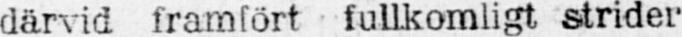därvid framfört fullkomligt strider
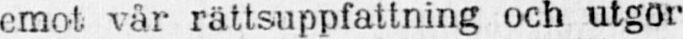emot vår rättsuppfattning och utgör
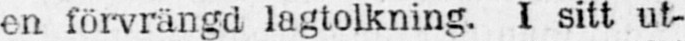en förvrängd lagtolkning. I sitt ut-
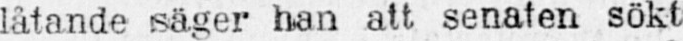låtande säger han att senaten sökt
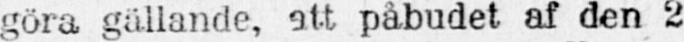göra gällande, att påbudet af den 2
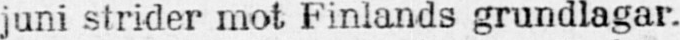juni strider mot Finlands grundlagar.
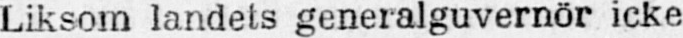Liksom landets generalguvernör icke
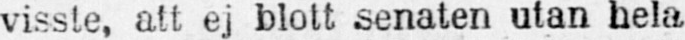visste, att ej blott senaten utan hela
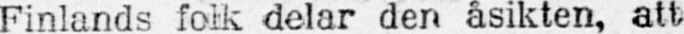Finlands folk delar den åsikten, att
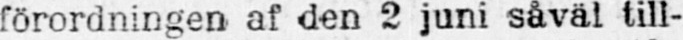förordningen af den 2 juni såväl till-
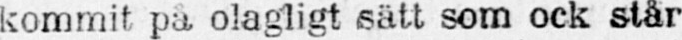kommit på olagligt sätt som ock står
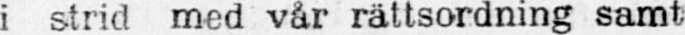i strid med vår rättsordning samt
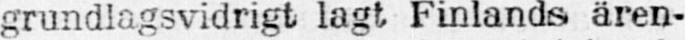grundlagsvidrigt lagt Finlands ären-
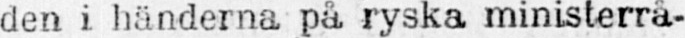den i händerna på ryska ministerrå-
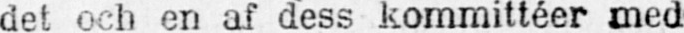det och en af dess kommittéer med
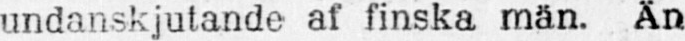undanskjutande af finska män. Än
